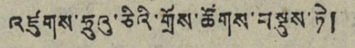འཛུགས་ཧྲུའུ་ཅིའི་གྲོས་ཚོགས་བསྡུས་ཏེ།
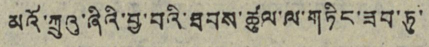མའོ་ཀྲུའུ་ཞིའི་བྱ་བའི་ཐབས་ཚུལ་ལ་གཏིང་ཟབ་ཏུ་
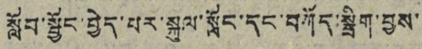སློབ་སྦྱོང་བྱེད་པར་སྐུལ་སློང་དང་བཀོད་སྒྲིག་བྱས་
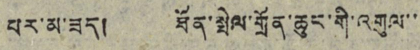པར་མ་ཟད། ཐོན་སྤེལ་གྲོན་ཆུང་གི་འགུལ་་
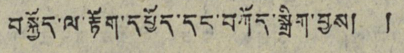བསྐྱོད་ལ་རྟོག་དཔྱོད་དང་བཀོད་སྒྲིག་བྱས། །
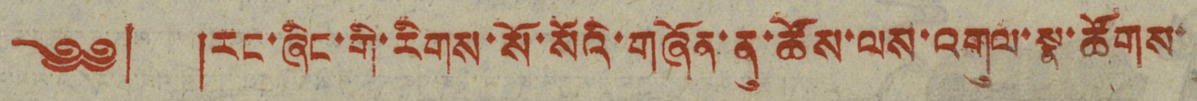༄༅། །རང་ཞིང་གི་རིགས་སོ་སོའི་གཞོན་ནུ་ཚོས་ལས་འགུལ་སྣ་ཚོགས་
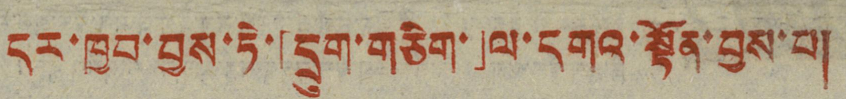དར་ཁྱབ་བྱས་ཏེ་「དྲུག་གཅིག་」ལ་དགའ་སྟོན་བྱས་པ།
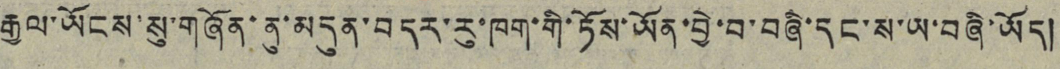རྒྱལ་ཡོངས་སུ་གཞོན་ནུ་མདུན་བདར་རུ་ཁག་གི་ཏོས་ཡོན་བྱེ་བ་བཞི་དང་ས་ཡ་བཞི་ཡོད།
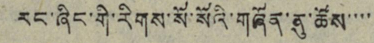རང་ཞིང་གི་རིགས་སོ་སོའི་གཞོན་ནུ་ཚོས་་་་
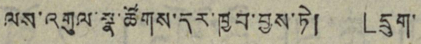ལས་འགུལ་སྣ་ཚོགས་དར་ཁྱབ་བྱས་ཏེ། 「དྲུག་
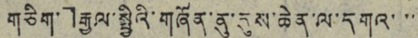གཅིག་」རྒྱལ་སྤྱིའི་གཞོན་ནུ་དུས་ཆེན་ལ་དགའ་་་
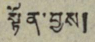སྟོན་བྱས།
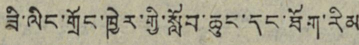ཟི་ལིང་གྲོང་ཁྱེར་གྱི་སློབ་ཆུང་དང་ཐོག་རིམ་
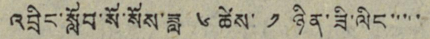འབྲིང་སློབ་སོ་སོས་ཟླ ༦ ཚེས་ ༡ ཉིན་ཟི་ལིང་་་་་་
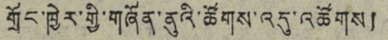གྲོང་ཁྱེར་གྱི་གཞོན་ནུའི་ཚོགས་འདུ་འཚོགས།
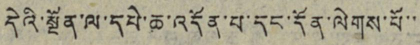དེའི་སྔོན་ལ་དཔེ་ཆ་འདོན་པ་དང་དོན་ལེགས་པོ་་
